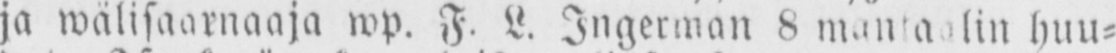ja wälisaarnaaja wp. F. L. Ingerman 8 mantaalin huu-
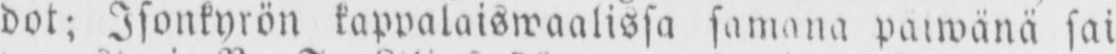dot; Isonkyrön kappalaiswaalissa samana paivänä sai
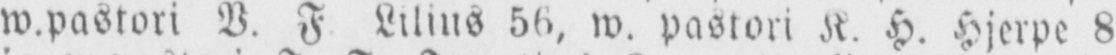w.pastori V. F Lilius 56, w. pastori K. H. Hjerpe 8
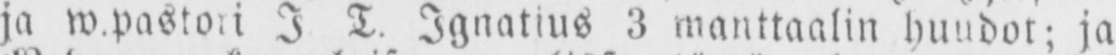ja w.pastori I. T. Ignatius 3 manttaalin huudot; ja
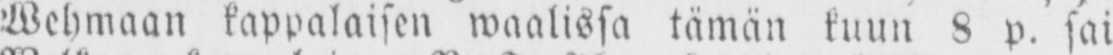Wehmaan kappalaisen waalissa tämän kuun 8 p. sai
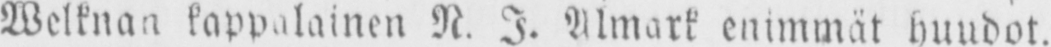Welknan kappalainen N. I. Almark enimmät huudot.
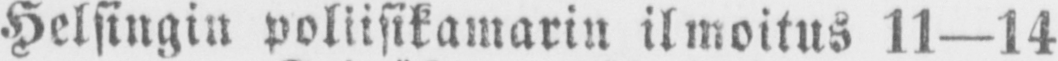Helsingin poliisikamarin ilmoitus 11—14
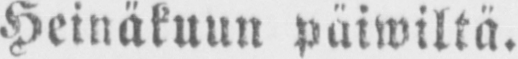Heinäkuun päiwiltä.
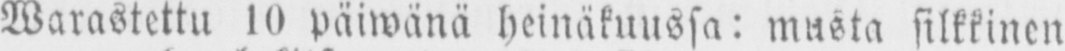Warastettu 10 päiwänä heinäkuussa: musta silkkinen
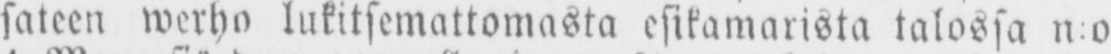sateen werho lukitsemattomasta esikamarista talossa n:o
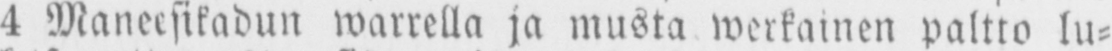4 Maneesikadun warrella ja musta werkainen paltto lu-
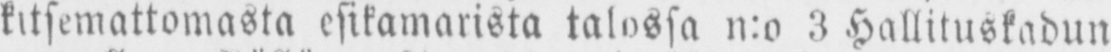kitsemattomasta esikamarista talossa n:o 3 Hallituskadun
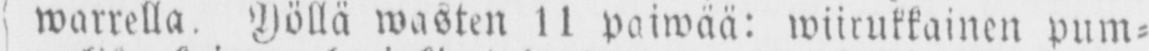warrella. Yöllä wasten 11 paiwää: wiirukkainen pum-
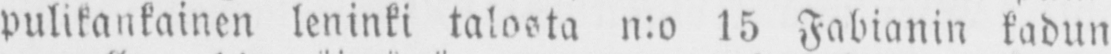pulikankainen leninki talosta n:o 15 Fabianin kadun
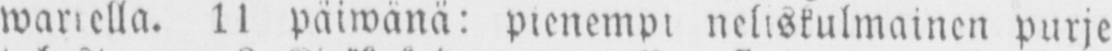wariella. 1l päiwänä: pienempi neliskulmainen purje
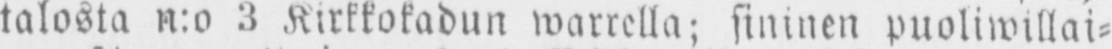talosta n:o 3 Kirkkokadun warrella; sininen puoliwillai-
